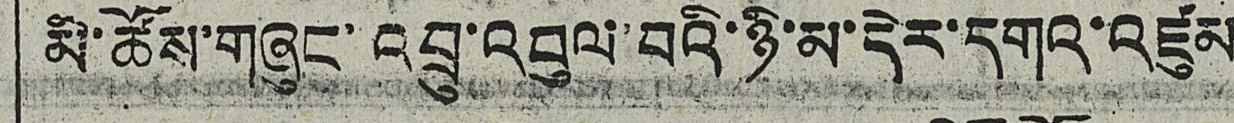མི་ཚོས་གཞུང་འབྲུ་འབུལ་བའི་ཉི་མ་དེར་དགའ་འཛུམ
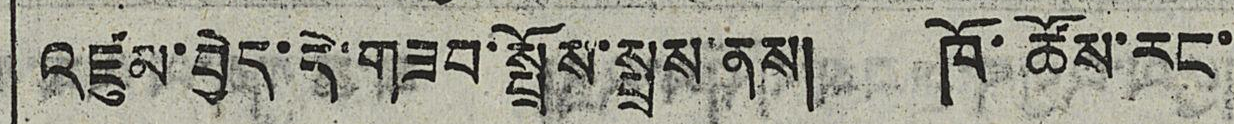འཛུམ་བྱེད་དེ་གཟབ་སྤྲོས་སྤྲས་ནས། ཁོ་ཚོས་རང་
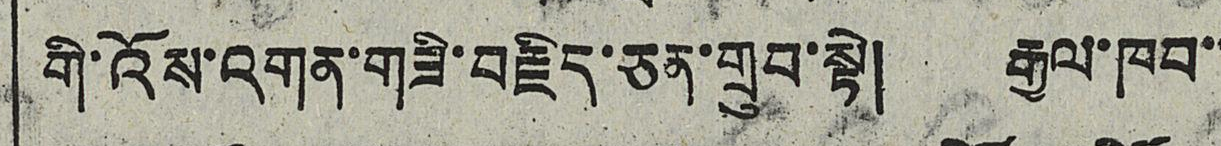གི་འོས་འགན་གཟི་བརྗིད་ཅན་གྲུབ་སྟེ། རྒྱལ་ཁབ་་
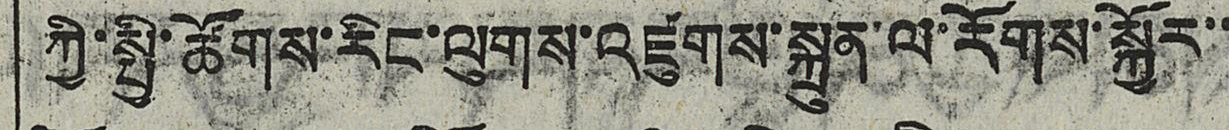ཀྱི་སྤྱི་ཚོགས་རིང་ལུགས་འཛུགས་སྐྲུན་ལ་རོགས་སྐྱོར་་
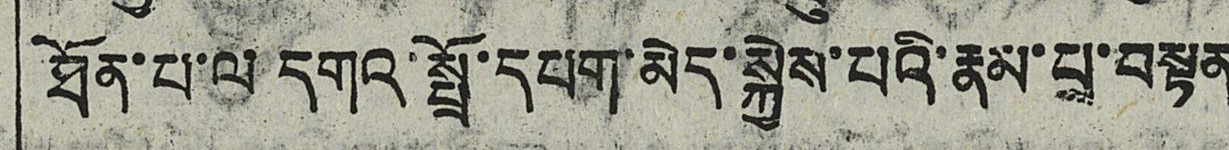ཐོན་པ་ལེ་དགའ་སྤྲོ་དཔག་མེད་སྐྱེས་པའི་རྣམ་པྲ་བསྟན
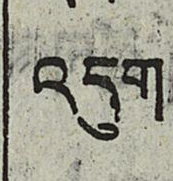འདུག
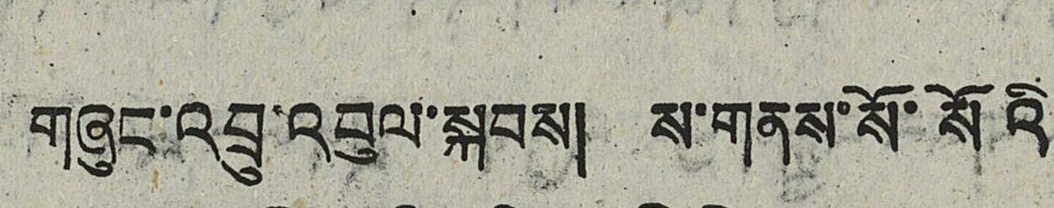གཞུང་འབྲུ་འབུལ་སྐབས། ས་གནས་སོ་སོའི
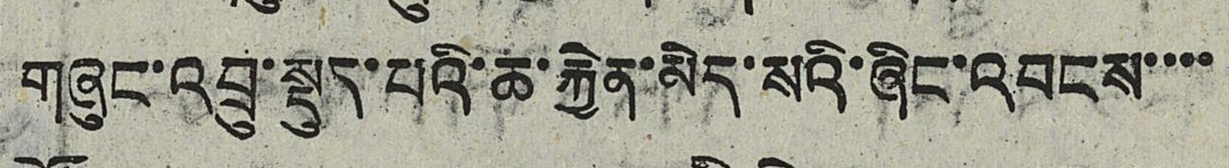གཞུང་འབྲུ་སྡུད་པའི་ཆ་རྐྱེན་མེད་སའི་ཞིང་འབངས་་་་
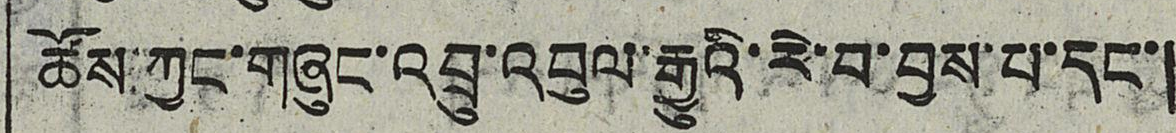ཚོས་ཀྱང་གཞུང་འབྲུ་འབུལ་རྒྱུའི་རེ་བ་བྱས་པ་དང་།
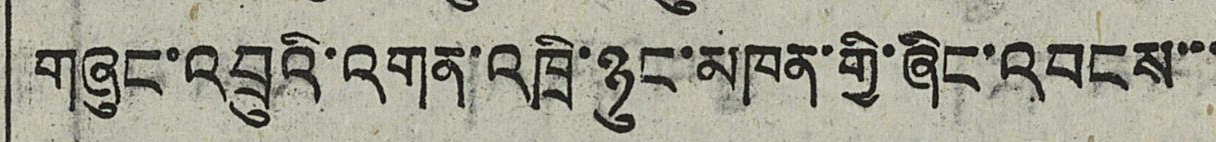གཞུང་འབྲུའི་འགན་འཁྲི་ཉུང་མཁན་གྱི་ཞིང་འབངས་་་
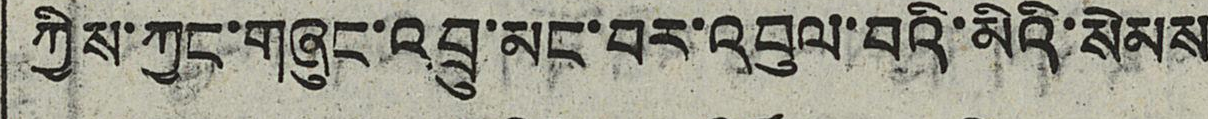ཀྱིས་ཀྱང་གཞུང་འབྲུ་མང་བར་འབུལ་བའི་མིའི་སེམས་
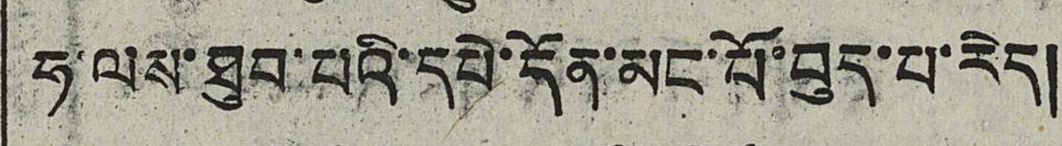ཧ་ལས་ཐུབ་པའི་དཔེ་དོན་མང་པོ་བུད་པ་རེད།
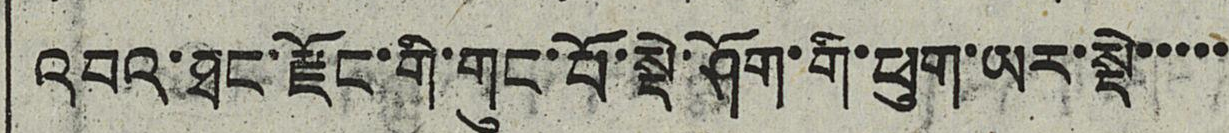འབའ་ཐང་རྫོང་གི་གུང་པོ་སྡེ་ཤོག་གི་ཕུག་ཡར་སྡེ་་་་་
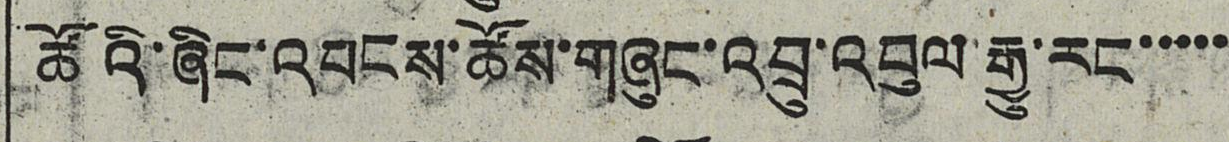ཚོའི་ཞིང་འབངས་ཚོས་གཞུང་འབྲུ་འབུལ་རྒྱུ་རང་་་་་
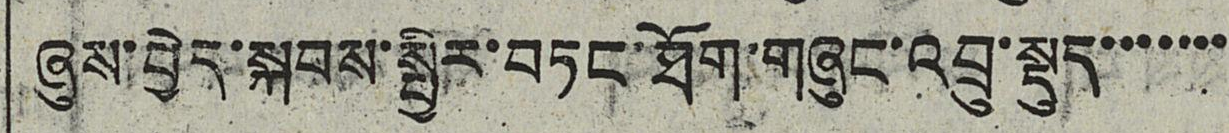ཞུས་བྱེད་སྐབས་སྤྱིར་བཏང་ཐོག་གཞུང་འབྲུ་སྡུད་་་་་་་
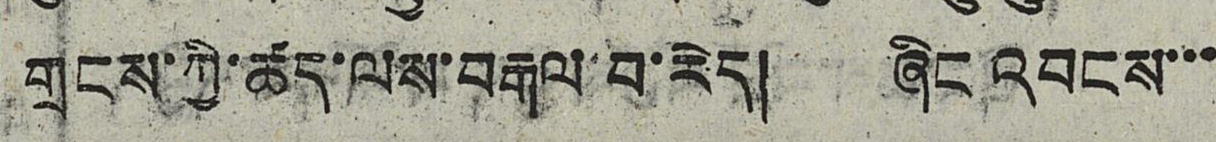གྲངས་ཀྱི་ཚད་ལས་བརྒལ་བ་རེད། ཞིང་འབངས་་་
